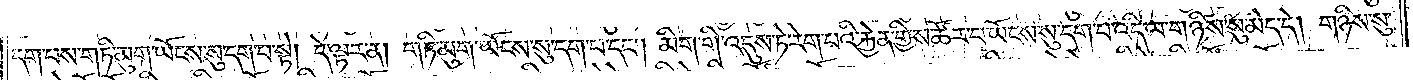དག་པས་གཏི་མུག་ཡོངས་སུ་དག་པ་སྟེ། དེ་ལྟར་ན། གཏི་མུག་ཡོངས་སུ་དག་པ་དང༌། མིག་གི་འདུས་ཏེ་རེག་པའི་རྐྱེན་གྱིས་ཚོར་བ་ཡོངས་སུ་དག་པ་འདི་ལ་གཉིས་སུ་མེད་དེ། གཉིས་སུ་
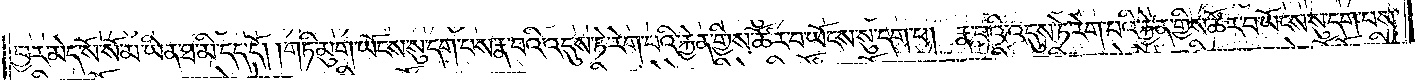བྱར་མེད་སོ་སོ་མ་ཡིན་ཐ་མི་དད་དོ། །གཏི་མུག་ཡོངས་སུ་དག་པས་རྣ་བའི་འདུས་ཏེ་རེག་པའི་རྐྱེན་གྱིས་ཚོར་བ་ཡོངས་སུ་དག་པ། རྣ་བའི་འདུས་ཏེ་རེག་པའི་རྐྱེན་གྱིས་ཚོར་བ་ཡོངས་སུ་དག་པས་
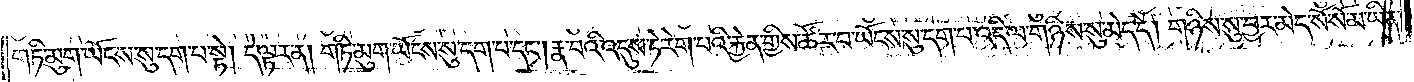གཏི་མུག་ཡོངས་སུ་དག་པ་སྟེ། དེ་ལྟར་ན། གཏི་མུག་ཡོངས་སུ་དག་པ་དང༌། རྣ་བའི་འདུས་ཏེ་རེག་པའི་རྐྱེན་གྱིས་ཚོར་བ་ཡོངས་སུ་དག་པ་འདི་ལ་གཉིས་སུ་མེད་དེ། གཉིས་སུ་བྱར་མེད་སོ་སོ་མ་ཡིན་
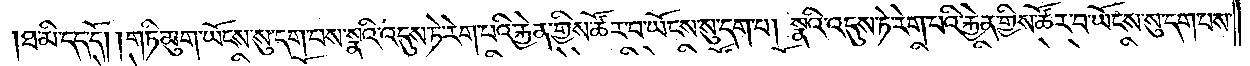ཐ་མི་དད་དོ། །གཏི་མུག་ཡོངས་སུ་དག་པས་སྣའི་འདུས་ཏེ་རེག་པའི་རྐྱེན་གྱིས་ཚོར་བ་ཡོངས་སུ་དག་པ། སྣའི་འདུས་ཏེ་རེག་པའི་རྐྱེན་གྱིས་ཚོར་བ་ཡོངས་སུ་དག་པས་
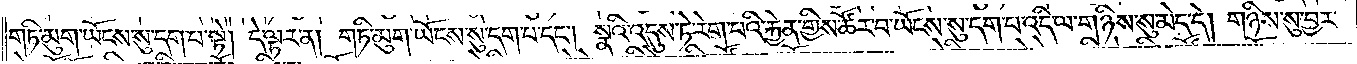གཏི་མུག་ཡོངས་སུ་དག་པ་སྟེ། དེ་ལྟར་ན། གཏི་མུག་ཡོངས་སུ་དག་པ་དང༌། སྣའི་འདུས་ཏེ་རེག་པའི་རྐྱེན་གྱིས་ཚོར་བ་ཡོངས་སུ་དག་པ་འདི་ལ་གཉིས་སུ་མེད་དེ། གཉིས་སུ་བྱར་
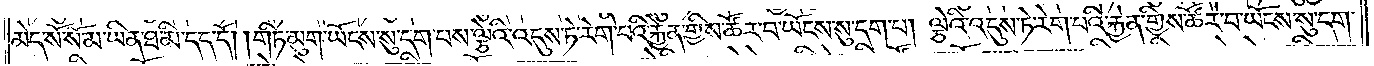མེད་སོ་སོ་མ་ཡིན་ཐ་མི་དད་དོ། །གཏི་མུག་ཡོངས་སུ་དག་པས་ལྕེའི་འདུས་ཏེ་རེག་པའི་རྐྱེན་གྱིས་ཚོར་བ་ཡོངས་སུ་དག་པ། ལྕེའི་འདུས་ཏེ་རེག་པའི་རྐྱེན་གྱིས་ཚོར་བ་ཡོངས་སུ་དག་
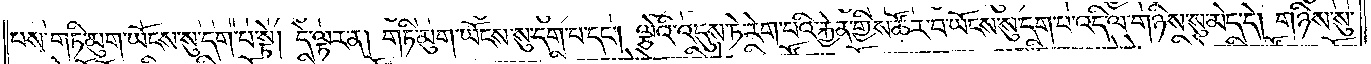པས་གཏི་མུག་ཡོངས་སུ་དག་པ་སྟེ། དེ་ལྟར་ན། གཏི་མུག་ཡོངས་སུ་དག་པ་དང༌། ལྕེའི་འདུས་ཏེ་རེག་པའི་རྐྱེན་གྱིས་ཚོར་བ་ཡོངས་སུ་དག་པ་འདི་ལ་གཉིས་སུ་མེད་དེ། གཉིས་སུ་
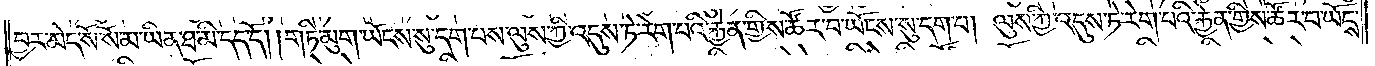བྱར་མེད་སོ་སོ་མ་ཡིན་ཐ་མི་དད་དོ། །གཏི་མུག་ཡོངས་སུ་དག་པས་ལུས་ཀྱི་འདུས་ཏེ་རེག་པའི་རྐྱེན་གྱིས་ཚོར་བ་ཡོངས་སུ་དག་པ། ལུས་ཀྱི་འདུས་ཏེ་རེག་པའི་རྐྱེན་གྱིས་ཚོར་བ་ཡོངས་
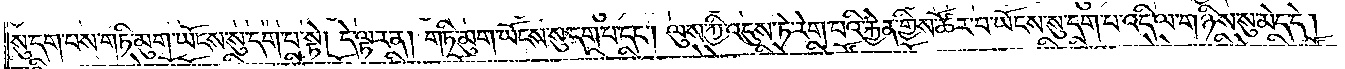སུ་དག་པས་གཏི་མུག་ཡོངས་སུ་དག་པ་སྟེ། དེ་ལྟར་ན། གཏི་མུག་ཡོངས་སུ་དག་པ་དང༌། ལུས་ཀྱི་འདུས་ཏེ་རེག་པའི་རྐྱེན་གྱིས་ཚོར་བ་ཡོངས་སུ་དག་པ་འདི་ལ་གཉིས་སུ་མེད་དེ།
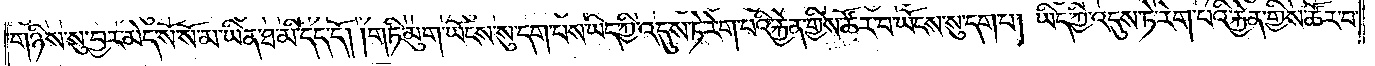གཉིས་སུ་བྱར་མེད་སོ་སོ་མ་ཡིན་ཐ་མི་དད་དོ། །གཏི་མུག་ཡོངས་སུ་དག་པས་ཡིད་ཀྱི་འདུས་ཏེ་རེག་པའི་རྐྱེན་གྱིས་ཚོར་བ་ཡོངས་སུ་དག་པ། ཡིད་ཀྱི་འདུས་ཏེ་རེག་པའི་རྐྱེན་གྱིས་ཚོར་བ་
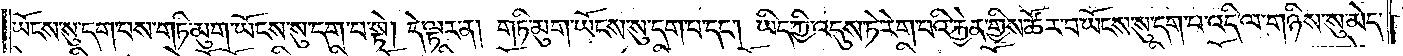ཡོངས་སུ་དག་པས་གཏི་མུག་ཡོངས་སུ་དག་པ་སྟེ། དེ་ལྟར་ན། གཏི་མུག་ཡོངས་སུ་དག་པ་དང༌། ཡིད་ཀྱི་འདུས་ཏེ་རེག་པའི་རྐྱེན་གྱིས་ཚོར་བ་ཡོངས་སུ་དག་པ་འདི་ལ་གཉིས་སུ་མེད་
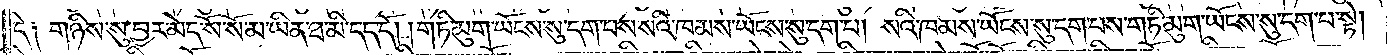དེ༑ གཉིས་སུ་བྱར་མེད་སོ་སོ་མ་ཡིན་ཐ་མི་དད་དོ། །གཏི་མུག་ཡོངས་སུ་དག་པས་སའི་ཁམས་ཡོངས་སུ་དག་པ། སའི་ཁམས་ཡོངས་སུ་དག་པས་གཏི་མུག་ཡོངས་སུ་དག་པ་སྟེ།
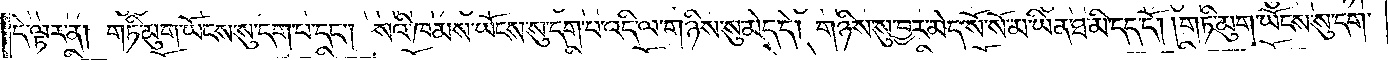དེ་ལྟར་ན། གཏི་མུག་ཡོངས་སུ་དག་པ་དང༌། སའི་ཁམས་ཡོངས་སུ་དག་པ་འདི་ལ་གཉིས་སུ་མེད་དེ། གཉིས་སུ་བྱར་མེད་སོ་སོ་མ་ཡིན་ཐ་མི་དད་དོ། །གཏི་མུག་ཡོངས་སུ་དག་
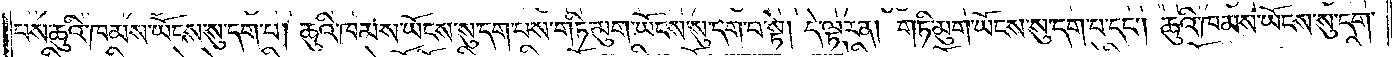པས་ཆུའི་ཁམས་ཡོངས་སུ་དག་པ། ཆུའི་ཁམས་ཡོངས་སུ་དག་པས་གཏི་མུག་ཡོངས་སུ་དག་པ་སྟེ། དེ་ལྟར་ན། གཏི་མུག་ཡོངས་སུ་དག་པ་དང༌། ཆུའི་ཁམས་ཡོངས་སུ་དག་
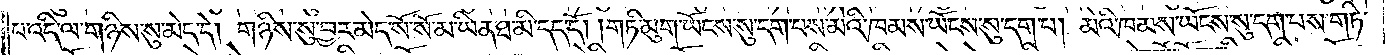པ་འདི་ལ་གཉིས་སུ་མེད་དེ། གཉིས་སུ་བྱར་མེད་སོ་སོ་མ་ཡིན་ཐ་མི་དད་དོ། །གཏི་མུག་ཡོངས་སུ་དག་པས་མེའི་ཁམས་ཡོངས་སུ་དག་པ། མེའི་ཁམས་ཡོངས་སུ་དག་པས་གཏི་
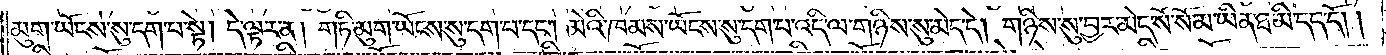མུག་ཡོངས་སུ་དག་པ་སྟེ། དེ་ལྟར་ན། གཏི་མུག་ཡོངས་སུ་དག་པ་དང༌། མེའི་ཁམས་ཡོངས་སུ་དག་པ་འདི་ལ་གཉིས་སུ་མེད་དེ། གཉིས་སུ་བྱར་མེད་སོ་སོ་མ་ཡིན་ཐ་མི་དད་དོ། །
